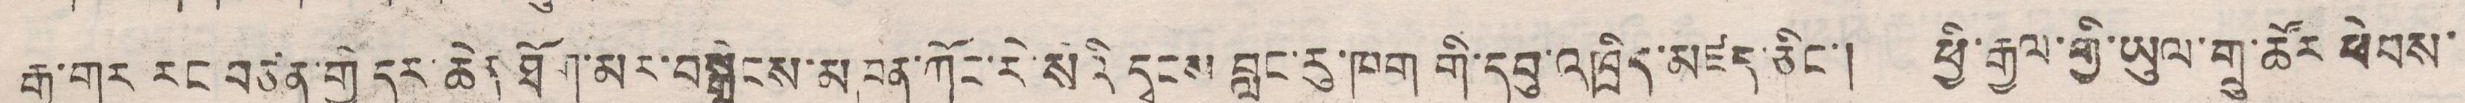རྒྱ་གར རང བཙན་གྱི་དར་ཆེན ཐོག་མར་བསྒྲེངས་མཁན་ཀོང་རེ་སའི དྭངས་བླང་རུ་ཁག གི་དབུ་འཁྲིད་མཛད་ཅིང་། ཕྱི་རྒྱལ་གྱི་ཡུལ་གྲུ་ཚོར ཕེབས་
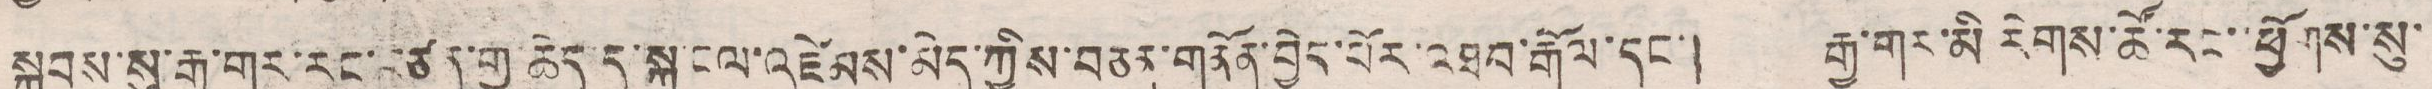སྐབས་སུ་རྒྱ་གར་རང་བཙན་གྱ་ཆེད་དུ་སྐུ་ངལ་འཛེམས་མེད་ཀྱིས་བཅན་གནོན་བྱེད་པོར་འཐབ་རྒོལ་དང་། རྒྱ་གར་མི རིགས་ཚོ་རང་ཕྱོགས་སུ་
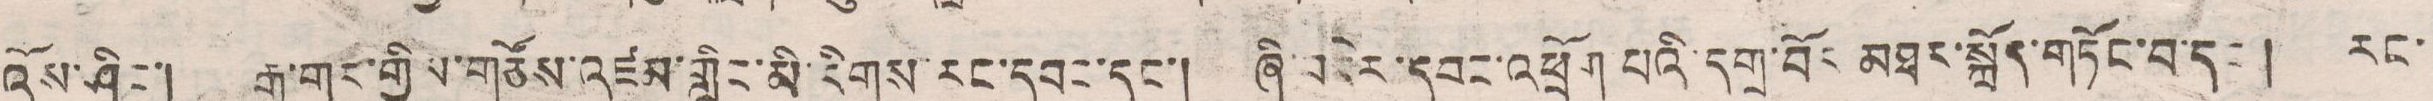འོས་ཤིང་། རྒྱ་གར་གྱིས་གཙོས་འཛམ་གླིང་མི་རིགས་རང་དབང་དང་། ཞི་བདེའི་དབང་འཕྲོག པའི་དགྲ་བོར མཐར་སྐྲོད་གཏོང་བ་དང་། རང་
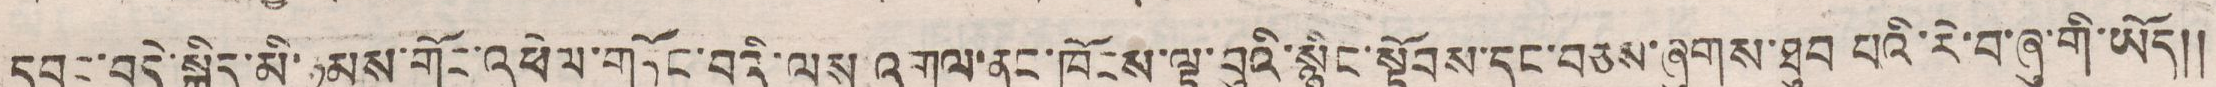དབང་བདེ་སྐྱིད་མི་ཉམས་གོང་འཕེལ་གཏོང་བའི་ལས་འགུལ་ནང་ཁོངས་ལྟ་བུའི་སྙིང་སྟོབས་དང་བཅས་ཞུགས་ཐུབ པའི་རེ་བ་ཞི་གི་ཡོད༎
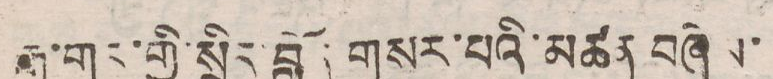རྒྱ་གར་གྱི་སྲིད་བློན གསར་པའི་མཚན བཞེས་
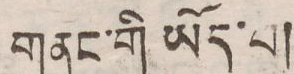གནང་གི ཡོད་པ།
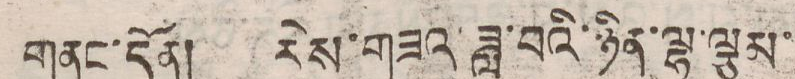གནང་དོན། རེས་གཟའ་ཟླ་བའི་ཉིན་ལྷ་ལྕམ་
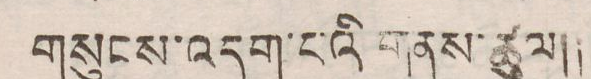གསུངས་འདུག་པའི་གནས་ཚུལ།།
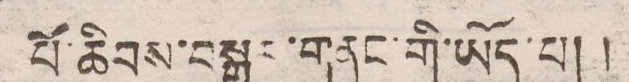པོ་ཆིབས་བསྒྱུར་གནང་གི་ཡོད་པ།།
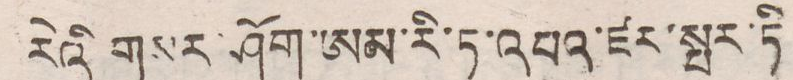རེའི གསར་ཤོག་ཨམ་རི་ཏ་འབའ་ཛར་སྤར་ཏི
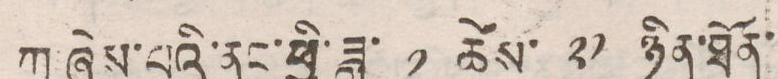ཀ་ཞེས་པའི་ནང་ཕྱི་ཟླ་ ༡ ཚེས་ ༢༡ ཉིན་ཐོན་
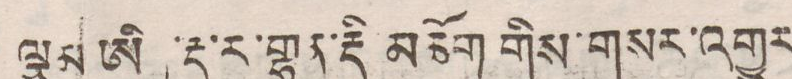ལྕམ ཨིན་རྡ་ར་གྷན་རྡི་མཆོག གིས་གསར་འགྱུར
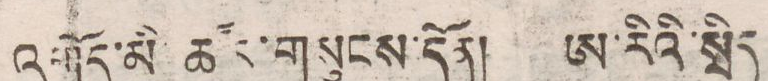འགོད་མི་ཚོར་གསུངས་དོན། ཨ་རིའི་སྲིད
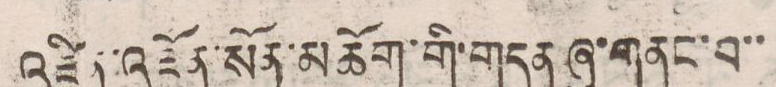འཛིན་འཇོན་སོན་མཆོག་གི་གདན་ཞུ་གནང་བ་་
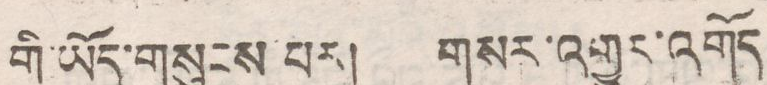གི་ཡོད་གསུངས་པར། གསར་འགྱུར་འགོད
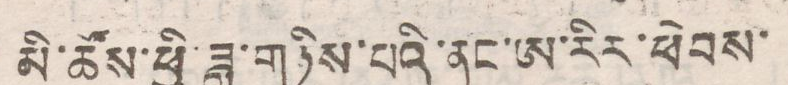མི་ཚོས་ཕྱི་ཟླ་གཉིས་པའི་ནང་ཨ་རིར་ཕེབས་
